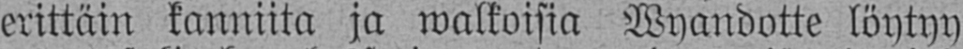erittäin kanniita ja walkoisia Wyandotte löytyy
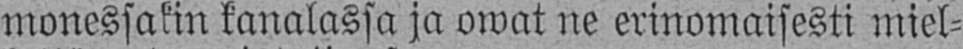monessakin kanalassa ja owat ne erinomaisesti miel-
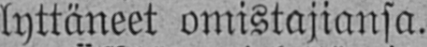lyttäneet omistajiansa.
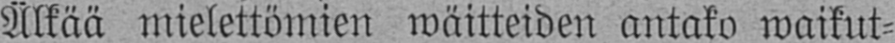Älkää mielettömien wäitteiden antako waikut-
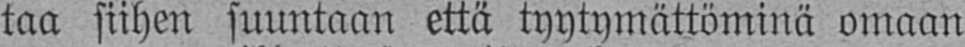taa siihen suuntaan että tyytymättöminä omaan
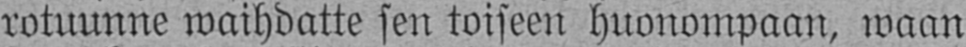rotuunne waihdatte sen toiseen huonompaan, waan
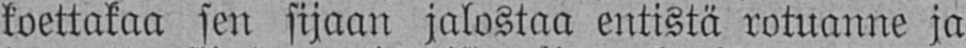koettakaa sen sijaan jalostaa entistä rotuanne ja
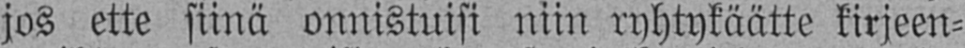jos ette siinä onnistuisi niin ryhtykäätte kirjeen-
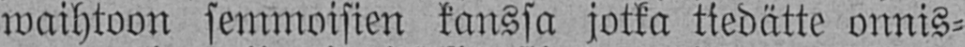waihtoon semmoisien kanssa jotka tiedätte onnis-
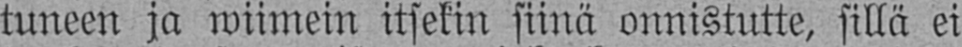tuneen ja wiimein itsekin siinä onnistutte, sillä ei
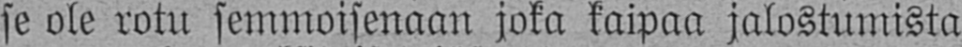se ole rotu semmoisenaan joka kaipaa jalostumista
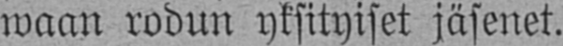waan rodun yksityiset jäsenet.
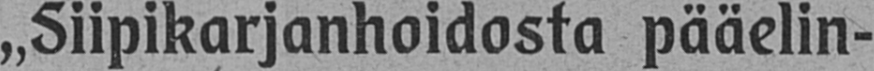„Siipikarjanhoidosta pääelin-
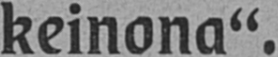keinona".
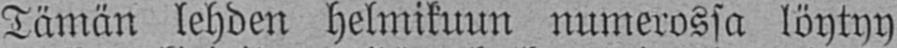Tämän lehden helmikuun numerossa löytyy
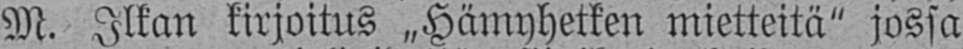M. Ilkan kirjoitus „Hämyhetken mietteitä" jossa
